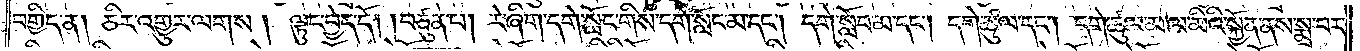བགྱིད་ན། ཅིར་འགྱུར་ལགས། ལྟུང་བྱེད་དོ། །བཙུན་པ། རེ་ཞིག་དགེ་སློང་གིས་དགེ་སློང་མ་དང༌། དགེ་སློབ་མ་དང༌། དགེ་ཚུལ་དང༌། དགེ་ཚུལ་མ་ལ་མིའི་སྐྱོན་ནས་སྨྲ་པར་
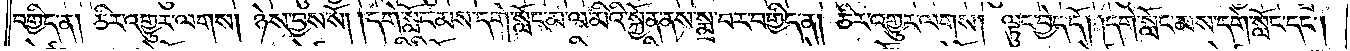བགྱིད་ན། ཅིར་འགྱུར་ལགས། ཉེས་བྱས་སོ། །དགེ་སློང་མས་དགེ་སློང་མ་ལ་མིའི་སྐྱོན་ནས་སྨྲ་བར་བགྱིད་ན། ཅིར་འགྱུར་ལགས། ལྟུང་བྱེད་དོ། །དགེ་སློང་མས་དགེ་སློང་དང༌།
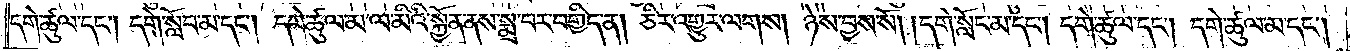དགེ་ཚུལ་དང༌། དགེ་སློང་མ་དང༌། དགེ་ཚུལ་མ་ལ་མིའི་སྐྱོན་ནས་སྨྲ་བར་བགྱིད་ན། ཅིར་འགྱུར་ལགས། ཉེས་བྱས་སོ། །དགེ་སློང་མ་དང༌། དགེ་ཚུལ་དང༌། དགེ་ཚུལ་མ་དང༌།
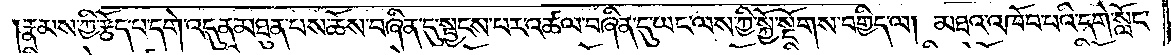།རྣམས་ཀྱི་རྩོད་པ་དགེ་འདུན་མཐུན་པས་ཆོས་བཞིན་དུ་སྦྱངས་པར་འཚལ་བཞིན་དུ་ཡང་ལས་ཀྱི་སྐྱོ་སྔོགས་བགྱིད་ལ། མཐའ་འཁོབ་པའི་དགེ་སློང་
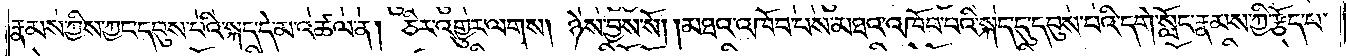རྣམས་ཀྱིས་ཀྱང་དབུས་པའི་སྐད་དེ་མ་འཚལ་ན། ཅིར་འགྱུར་ལགས། ཉེས་བྱས་སོ། །མཐའ་འཁོབ་པས་མཐའ་འཁོབ་པའི་སྐད་དུ་དབུས་པའི་དགེ་སློང་རྣམས་ཀྱི་རྩོད་པ་
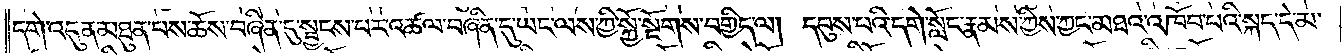དགེ་འདུན་མཐུན་པས་ཆོས་བཞིན་དུ་སྦྱངས་པར་འཚལ་བཞིན་དུ་ཡང་ལས་ཀྱི་སྐྱོ་སྔོགས་བགྱིད་ལ། དབུས་པའི་དགེ་སློང་རྣམས་ཀྱིས་ཀྱང་མཐའ་འཁོབ་པའི་སྐད་དེ་མ་
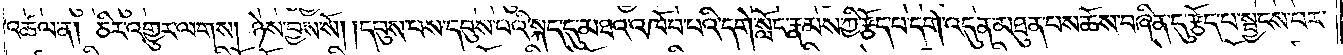འཚལ་ན། ཅིར་འགྱུར་ལགས། ཉེས་བྱས་སོ། །དབུས་པས་དབུས་པའི་སྐད་དུ་མཐའ་འཁོབ་པའི་དགེ་སློང་རྣམས་ཀྱིས་རྩོད་པ་དགེ་འདུན་མཐུན་པས་ཆོས་བཞིན་དུ་རྩོད་པ་སྦྱངས་པར་
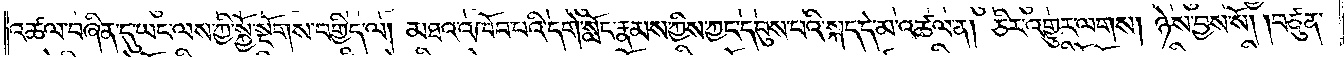འཚལ་བཞིན་དུ་ཡང་ལས་ཀྱི་སྐྱོ་སྔོགས་བགྱིད་ལ། མཐའ་འཁོབ་པའི་དགེ་སློང་རྣམས་ཀྱིས་ཀྱང་དབུས་པའི་སྐད་དེ་མ་འཚལ་ན། ཅིར་འགྱུར་ལགས། ཉེས་བྱས་སོ། །བཙུན་
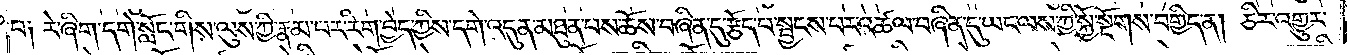པ༑ རེ་ཞིག་དགེ་སློང་གིས་ལུས་ཀྱི་རྣམ་པར་རིག་བྱེད་ཀྱིས་དགེ་འདུན་མཐུན་པས་ཆོས་བཞིན་དུ་རྩོད་པ་སྦྱངས་པར་འཚལ་བཞིན་དུ་ཡང་ལས་ཀྱི་སྐྱོ་སྔོགས་བགྱིད་ན། ཅིར་འགྱུར་
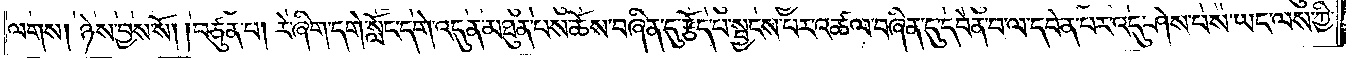ལགས། ཉེས་བྱས་སོ། །བཙུན་པ། རེ་ཞིག་དགེ་སློང་དགེ་འདུན་མཐུན་པས་ཆོས་བཞིན་དུ་རྩོད་པ་སྦྱངས་པར་འཚལ་བཞིན་དུ་དབེན་པ་ལ་དབེན་པར་འདུ་ཤེས་པས་ཡང་ལས་ཀྱི་
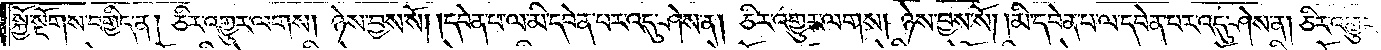སྐྱོ་སྔོགས་བགྱིད་ན། ཅིར་འགྱུར་ལགས། ཉེས་བྱས་སོ། །དབེན་པ་ལ་མི་དབེན་པར་འདུ་ཤེས་ན། ཅིར་འགྱུར་ལགས། ཉེས་བྱས་སོ། །མི་དབེན་པ་ལ་དབེན་པར་འདུ་ཤེས་ན། ཅིར་འགྱུར་
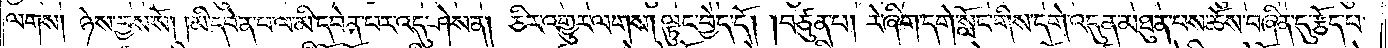ལགས། ཉེས་བྱས་སོ། །མི་དབེན་པ་ལ་མི་དབེན་པར་འདུ་ཤེས་ན། ཅིར་འགྱུར་ལགས། ལྟུང་བྱེད་དོ། །བཙུན་པ། རེ་ཞིག་དགེ་སློང་གིས་དགེ་འདུན་མཐུན་པས་ཆོས་བཞིན་དུ་རྩོད་པ་
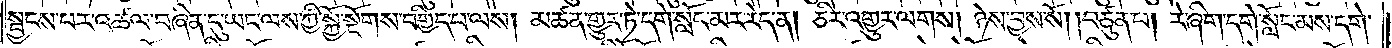སྦྱངས་པར་འཚལ་བཞིན་དུ་ཡང་ལས་ཀྱི་སྐྱོ་སྡོགས་བགྱིད་པ་ལས། མཚན་གྱུར་ཏེ་དགེ་སློང་མར་རེད་ན། ཅིར་འགྱུར་ལགས། ཉེས་བྱས་སོ། །བཙུན་པ། རེ་ཞིག་དགེ་སློང་མས་དགེ་
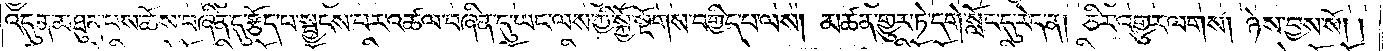འདུན་མཐུན་པས་ཆོས་བཞིན་དུ་རྩོད་པ་སྦྱངས་པར་འཚལ་བཞིན་དུ་ཡང་ལས་ཀྱི་སྐྱོ་སྔོགས་བགྱིད་པ་ལས། མཚན་གྱུར་ཏེ་དགེ་སློང་དུ་རེད་ན། ཅིར་འགྱུར་ལགས། ཉེས་བྱས་སོ། །
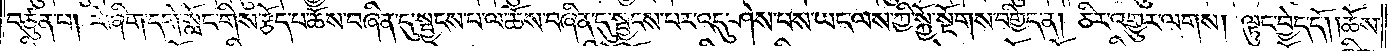བཙུན་པ། རེ་ཞིག་དགེ་སློང་གིས་རྩོད་པ་ཆོས་བཞིན་དུ་སྦྱངས་པ་ལ་ཆོས་བཞིན་དུ་སྦྱངས་པར་འདུ་ཤེས་པས་ཡང་ལས་ཀྱི་སྐྱོ་སྔོགས་བགྱིད་ན། ཅིར་འགྱུར་ལགས། ལྟུང་བྱེད་དོ། །ཆོས་
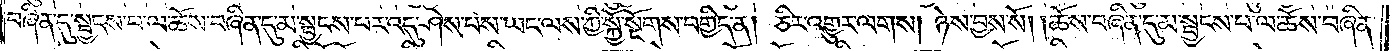བཞིན་དུ་སྦྱངས་པ་ལ་ཆོས་བཞིན་དུ་མ་སྦྱངས་པར་འདུ་ཤེས་པས་ཡང་ལས་ཀྱི་སྐྱོ་སྔོགས་བགྱིད་ན། ཅིར་འགྱུར་ལགས། ཉེས་བྱས་སོ། །ཆོས་བཞིན་དུ་མ་སྦྱངས་པ་ལ་ཆོས་བཞིན་
